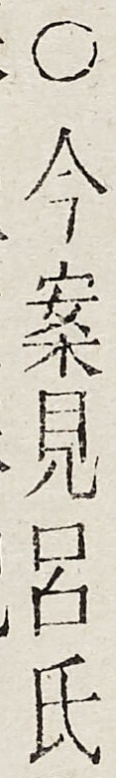○今案見呂氏
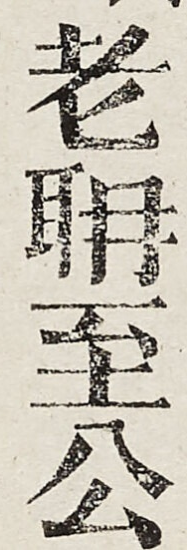老耼至公
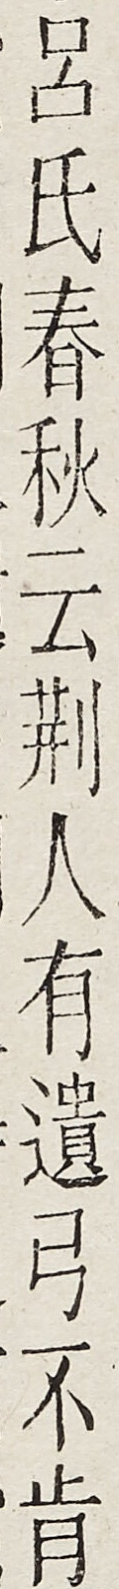呂氏春秋云荊人有遺弓不肯
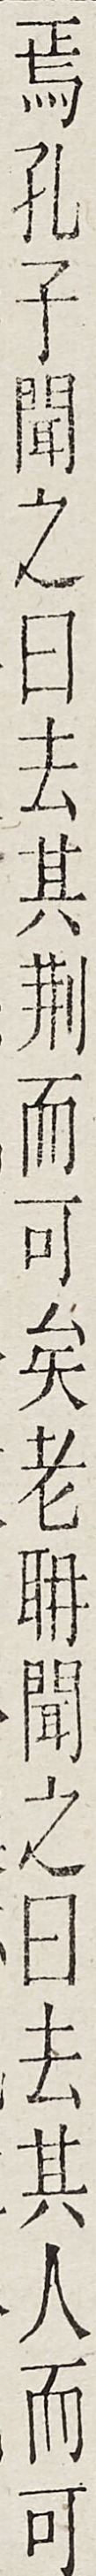焉孔子聞之曰去其荊而可矣老耼聞之曰去其人而可
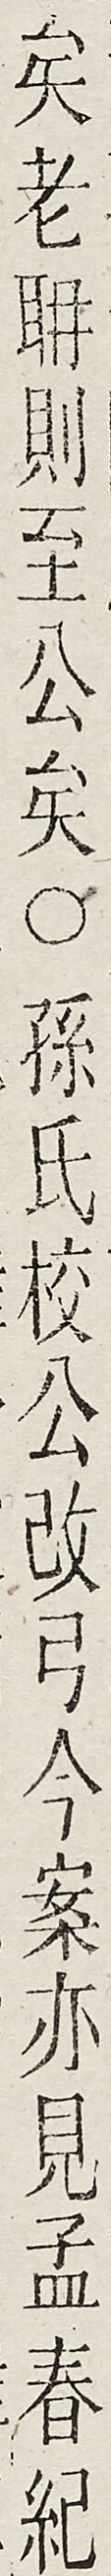矣老耼則至公矣○孫氏校公改弓今案亦見孟春紀
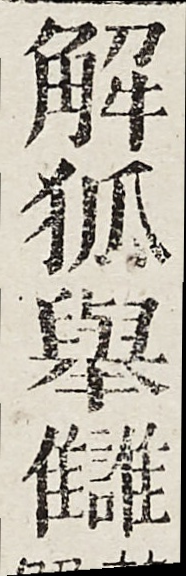解狐舉讎
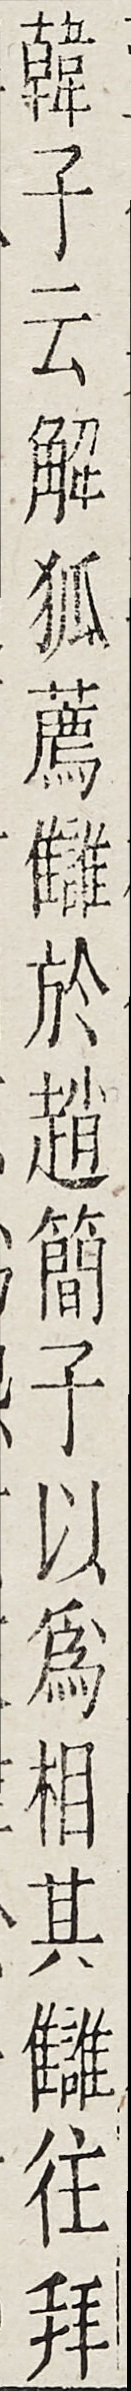韓子云解狐薦讎於趙簡子以為相其讎往拜
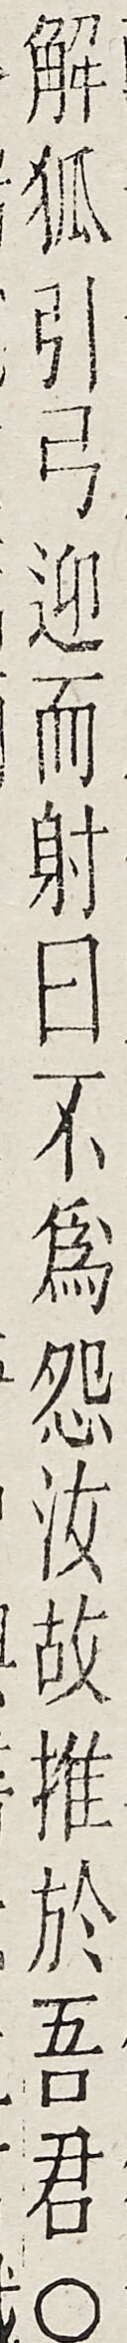解狐引弓迎而射曰不為怨汝故推於吾君○
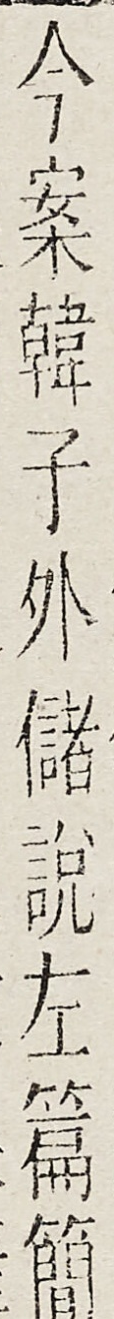今案韓子外儲說左篇簡
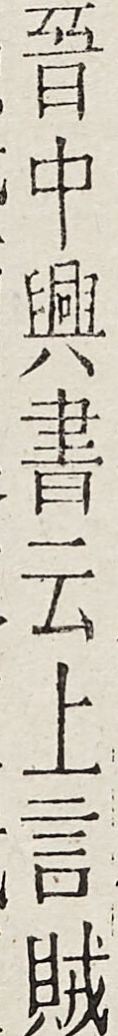晉中興書云上言賊
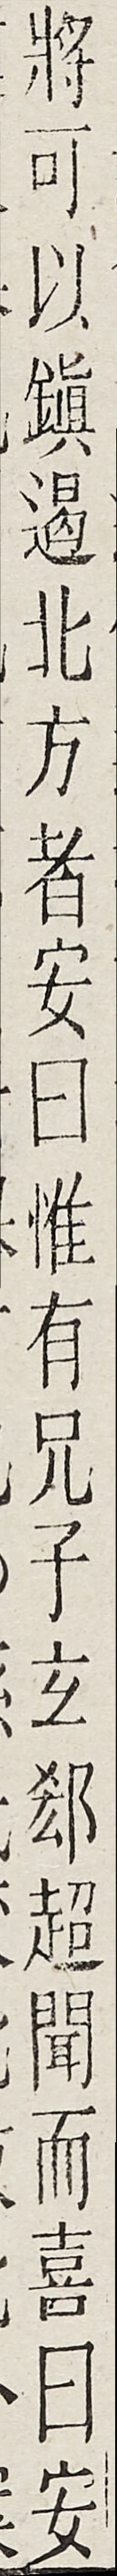將可以鎮遏北方者安曰惟有兄子玄卻超聞而喜曰安
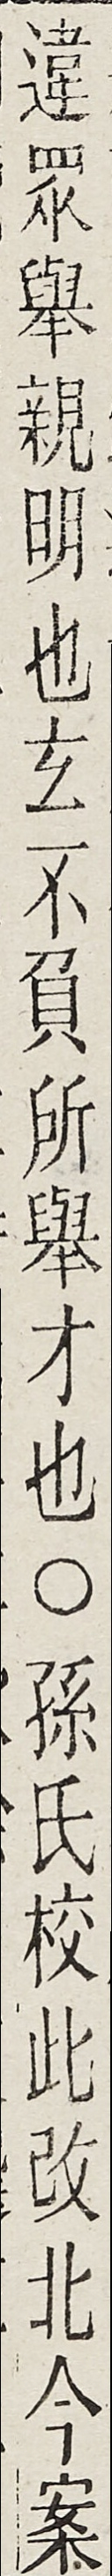違眾舉親明也玄不負所舉才也○孫氏校此改北今案
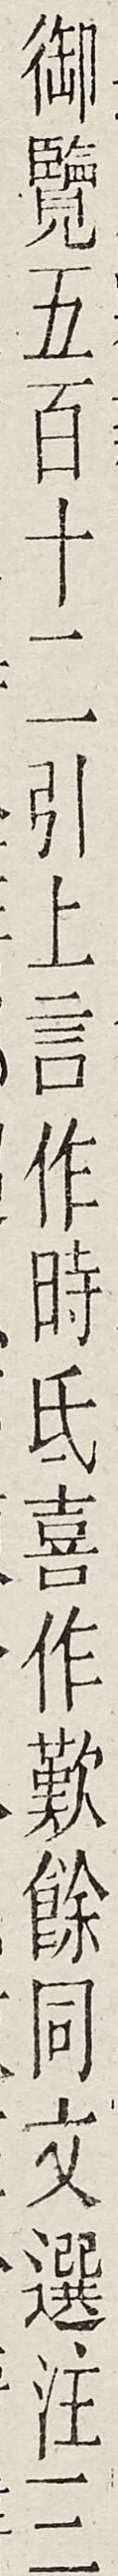御覽五百十二引上言作時氐喜作嘆餘同文選注三
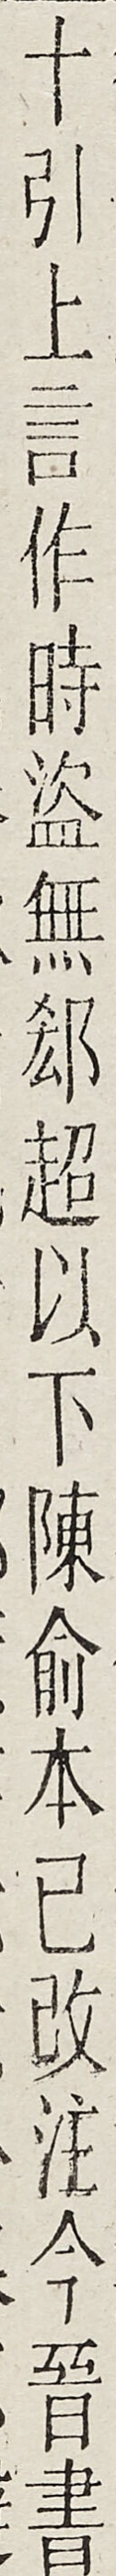十引上言作時盜無卻超以下陳俞本已改注今晉書
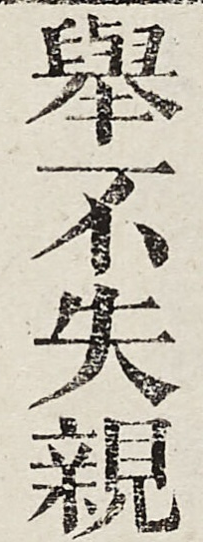舉不失親
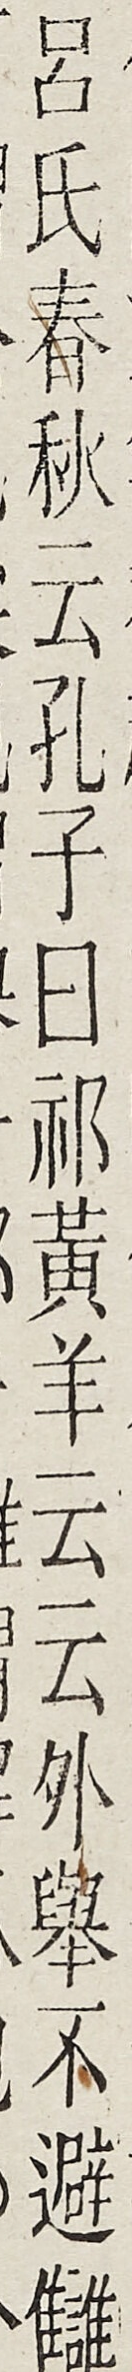呂氏春秋云孔子曰祁黃羊云云外舉不避讎
